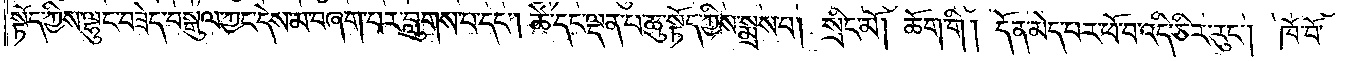སྟོད་ཀྱིས་ལྷུང་བཟེད་བསྒུལ་ཀྱང་དེས་མ་བཞག་པར་བླུགས་པ་དང༌། ཚེ་དང་ལྡན་པ་ཆུ་སྟོད་ཀྱིས་སྨྲས་པ། སྲིང་མོ། ཆོག་གི། དོན་མེད་པར་ཕོ་བ་འདི་ཅིར་རུང༌། ཁོ་བོ་
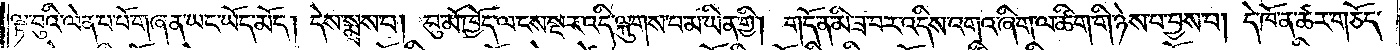ལྟ་བུའི་ལེན་པ་པོ་གཞན་ཡང་ཡོད་མོད། དེས་སྨྲས་པ། བུ་མོ་ཁྱོད་ལ་ངས་སྔར་འདི་ལྐུགས་པ་མ་ཡིན་གྱི། གདོན་མི་ཟ་བར་འདིས་འགའ་ཞིག་ལ་ཚིག་གི་ཉེས་པ་བྱས་བ། དེ་ཁོ་ན་ཚར་གཅོད་
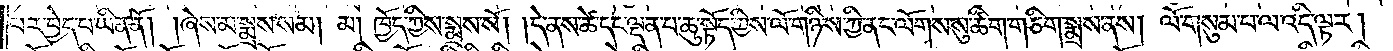པར་བྱེད་པ་ཡིན་ནོ། །ཞེས་མ་སྨྲས་སམ། མ། ཁྱོད་ཀྱིས་སྨྲས་སོ། །དེ་ནས་ཚེ་དང་ལྡན་པ་ཆུ་སྟོད་ཀྱིས་ལོ་གཉིས་ཀྱི་ནང་ལོགས་སུ་ཚིག་གཅིག་སྨྲས་ནས། ལོ་གསུམ་པ་ལ་འདི་ལྟར།
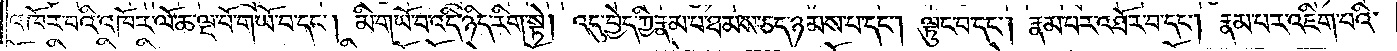འཁོར་བའི་འཁོར་ལོ་ཆ་ལྔ་པོ་གཡོ་བ་དང༌། མི་གཡོ་བ་འདི་ཉིད་རིག་སྟེ། འདུ་བྱེ་ཀྱི་རྣམ་པ་ཐམས་ཅད་ཉམས་པ་དང༌། ལྟུང་བ་དང༌། རྣམ་པར་འཐོར་བ་དང༌། རྣམ་པར་འཇིག་པའི་
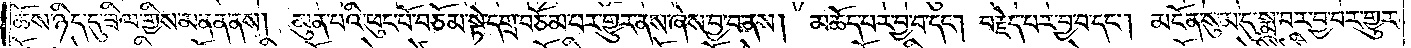ཆོས་ཉིད་དུ་ཟིལ་གྱིས་མནན་ནས། མུན་པའི་ཕུང་པོ་བཅོམ་སྟེ་དགྲ་བཅོམ་པར་གྱུར་ནས་ཞེས་བྱ་བ་ནས། མཆོད་པར་བྱ་བ་དང༌། བརྗེད་པར་བྱ་བ་དང༌། མངོན་སུམ་དུ་སྨྲ་བར་བྱ་བར་གྱུར་
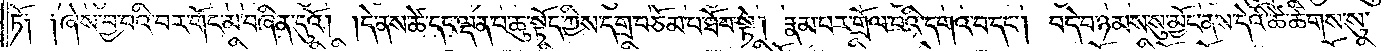ཏོ། །ཞེས་བྱ་བའི་བར་གོང་མ་བཞིན་དུའོ། །དེ་ནས་ཚེ་དང་ལྡན་པ་ཆུ་སྟོད་ཀྱིས་དགྲ་བཅོམ་པ་ཐོབ་སྟེ། རྣམ་པར་གྲོལ་བའི་དགའ་བ་དང༌། བདེ་བ་ཉམས་སུ་མྱོང་ནས་དེའི་ཚེ་ཚིགས་སུ་
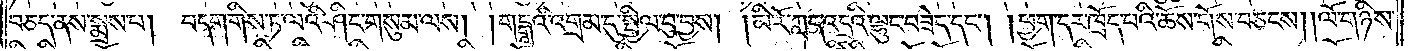བཅད་ནས་སྨྲས་པ། བདག་གིས་ཏ་ལའི་ཤིང་གསུམ་ལས། གངྒཱའི་འགྲམ་དུ་སྤྱིལ་བུ་བྱས། །མི་རོ་ཀླད་འདྲའི་ལྷུང་བཟེད་དང༌། །ཕྱག་དར་ཁྲོད་པའི་ཆོས་གོས་བཅངས། །ལོ་གཉིས་
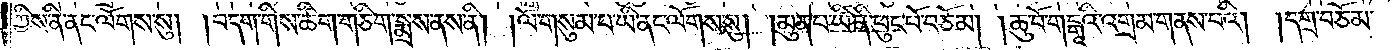ཀྱིས་ནི་ནང་ལོགས་སུ། །བདག་གིས་ཚིག་གཅིག་སྨྲས་ནས་ནི། །ལོ་གསུམ་པ་ཡི་ནང་ལོགས་སུ། །མུན་པ་ཡི་ནི་ཕུང་པོ་བཅོམ། །ཆུ་བོ་གངྒཱའི་འགྲམ་གནས་པའི། །དགྲ་བཅོམ་
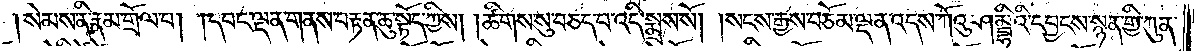སེམས་ནི་རྣམ་གྲོལ་བ། །དབང་ལྡན་གནས་བརྟན་ཆུ་སྟོད་ཀྱིས། །ཚིགས་སུ་བཅད་པ་འདི་སྨྲས་སོ།    །སངས་རྒྱས་བཅོམ་ལྡན་འདས་ཀོའུ་ཤམྦྷིའི་དབྱངས་སྙན་གྱི་ཀུན་
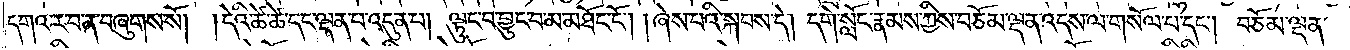དགའ་ར་བ་ན་བཞུགས་སོ། །དེའི་ཚེ་ཚེ་དང་ལྡན་པ་འདུན་པ། ལྟུང་བ་བྱུང་བ་མ་མཐོང་ངོ༌། །ཞེས་པའི་སྐབས་དེ། དགེ་སློང་རྣམས་ཀྱིས་བཅོམ་ལྡན་འདས་ལ་གསོལ་པ་དང༌། བཅོམ་ལྡན་
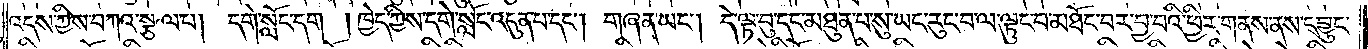འདས་ཀྱིས་བཀའ་སྩལ་པ། དགེ་སློང་དག །ཁྱེད་ཀྱིས་དགེ་སློང་འདུན་པ་དང༌། གཞན་ཡང༌། དེ་ལྟ་བུ་དང་མཐུན་པ་སུ་ཡང་རུང་བ་ལ་ལྟུང་བ་མཐོང་བར་བྱ་བའི་ཕྱིར་གནས་ནས་དབྱུང་
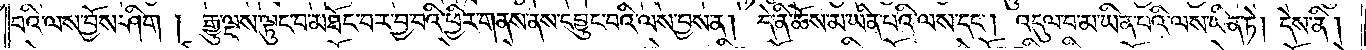བའི་ལས་བྱོས་ཤིག། རྒྱུ་ལྔས་ལྟུང་བ་མཐོང་བར་བྱ་བའི་ཕྱིར་གནས་ནས་དབྱུང་བའི་ལས་བྱས་ན། དེ་ནི་ཆོས་མ་ཡིན་པའི་ལས་དང༌། འདུལ་བ་མ་ཡིན་པའི་ལས་ཡིན་ཏེ། དེས་ནི།
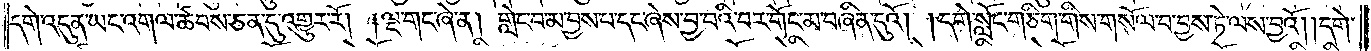དགེ་འདུན་ཡང་འགལ་ཚབས་ཅན་དུ་འགྱུར་རོ། །ལྔ་གང་ཞེ་ན། གླེང་བ་མ་བྱས་པ་དང་ཞེས་བྱ་བའི་བར་གོང་མ་བཞིན་དུའོ། །དགེ་སློང་གཅིག་གིས་གསོལ་བ་བྱས་ཏེ་ལས་བྱའོ། །དགེ་
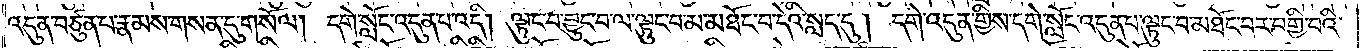འདུན་བཙུན་པ་རྣམས་གསན་དུ་གསོལ། །དགེ་སློང་འདུན་པ་འདི། ལྟུང་བ་བྱུང་བ་ལ་ལྟུང་བ་མ་མཐོང་བ་དེའི་སླད་དུ། དགེ་འདུན་གྱིས་དགེ་སློང་འདུན་པ་ལྟུང་བ་མཐོང་བར་བགྱི་བའི་
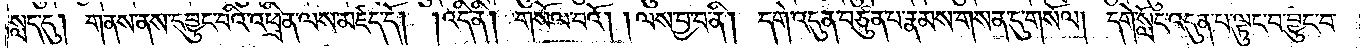སླད་དུ། གནས་ནས་དབྱུང་བའི་འཕྲིན་ལས་མཛད་དོ། །འདི་ནི། གསོལ་བའོ། །ལས་བྱ་བ་ནི། དགེ་འདུན་བཙུན་པ་རྣམས་གསན་དུ་གསོལ། དགེ་སློང་འདུན་པ་ལྟུང་བ་བྱུང་བ་
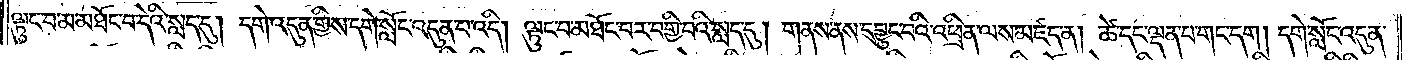ལྟུང་བ་མ་མཐོང་བ་དེའི་སླད་དུ། དགེ་འདུན་གྱིས་དགེ་སློང་འདུན་པ་འདི། ལྟུང་བ་མཐོང་བར་བགྱི་བའི་སླད་དུ། གནས་ནས་དབྱུང་བའི་འཕྲིན་ལས་མཛད་ན། ཚེ་དང་ལྡན་པ་གང་དག། དགེ་སློང་འདུན་
